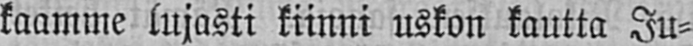kaamme lujasti kiinni uskon kautta Ju-
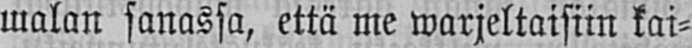walan sanassa, että me warjeltaisiin kai-
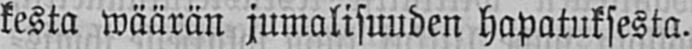kesta wäärän jumalisuuden hapatuksesta.
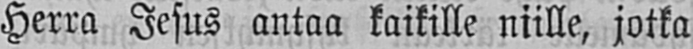Herra Jesus antaa kaikille niille, jotka
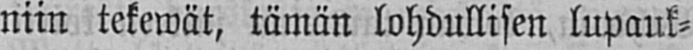niin tekewät, tämän lohdullisen lupauk-
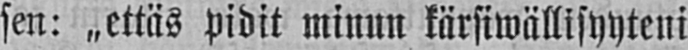sen: „ettäs pidit minun kärsiwällisyyteni
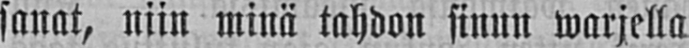sanat, niin minä tahdon sinun warjella
